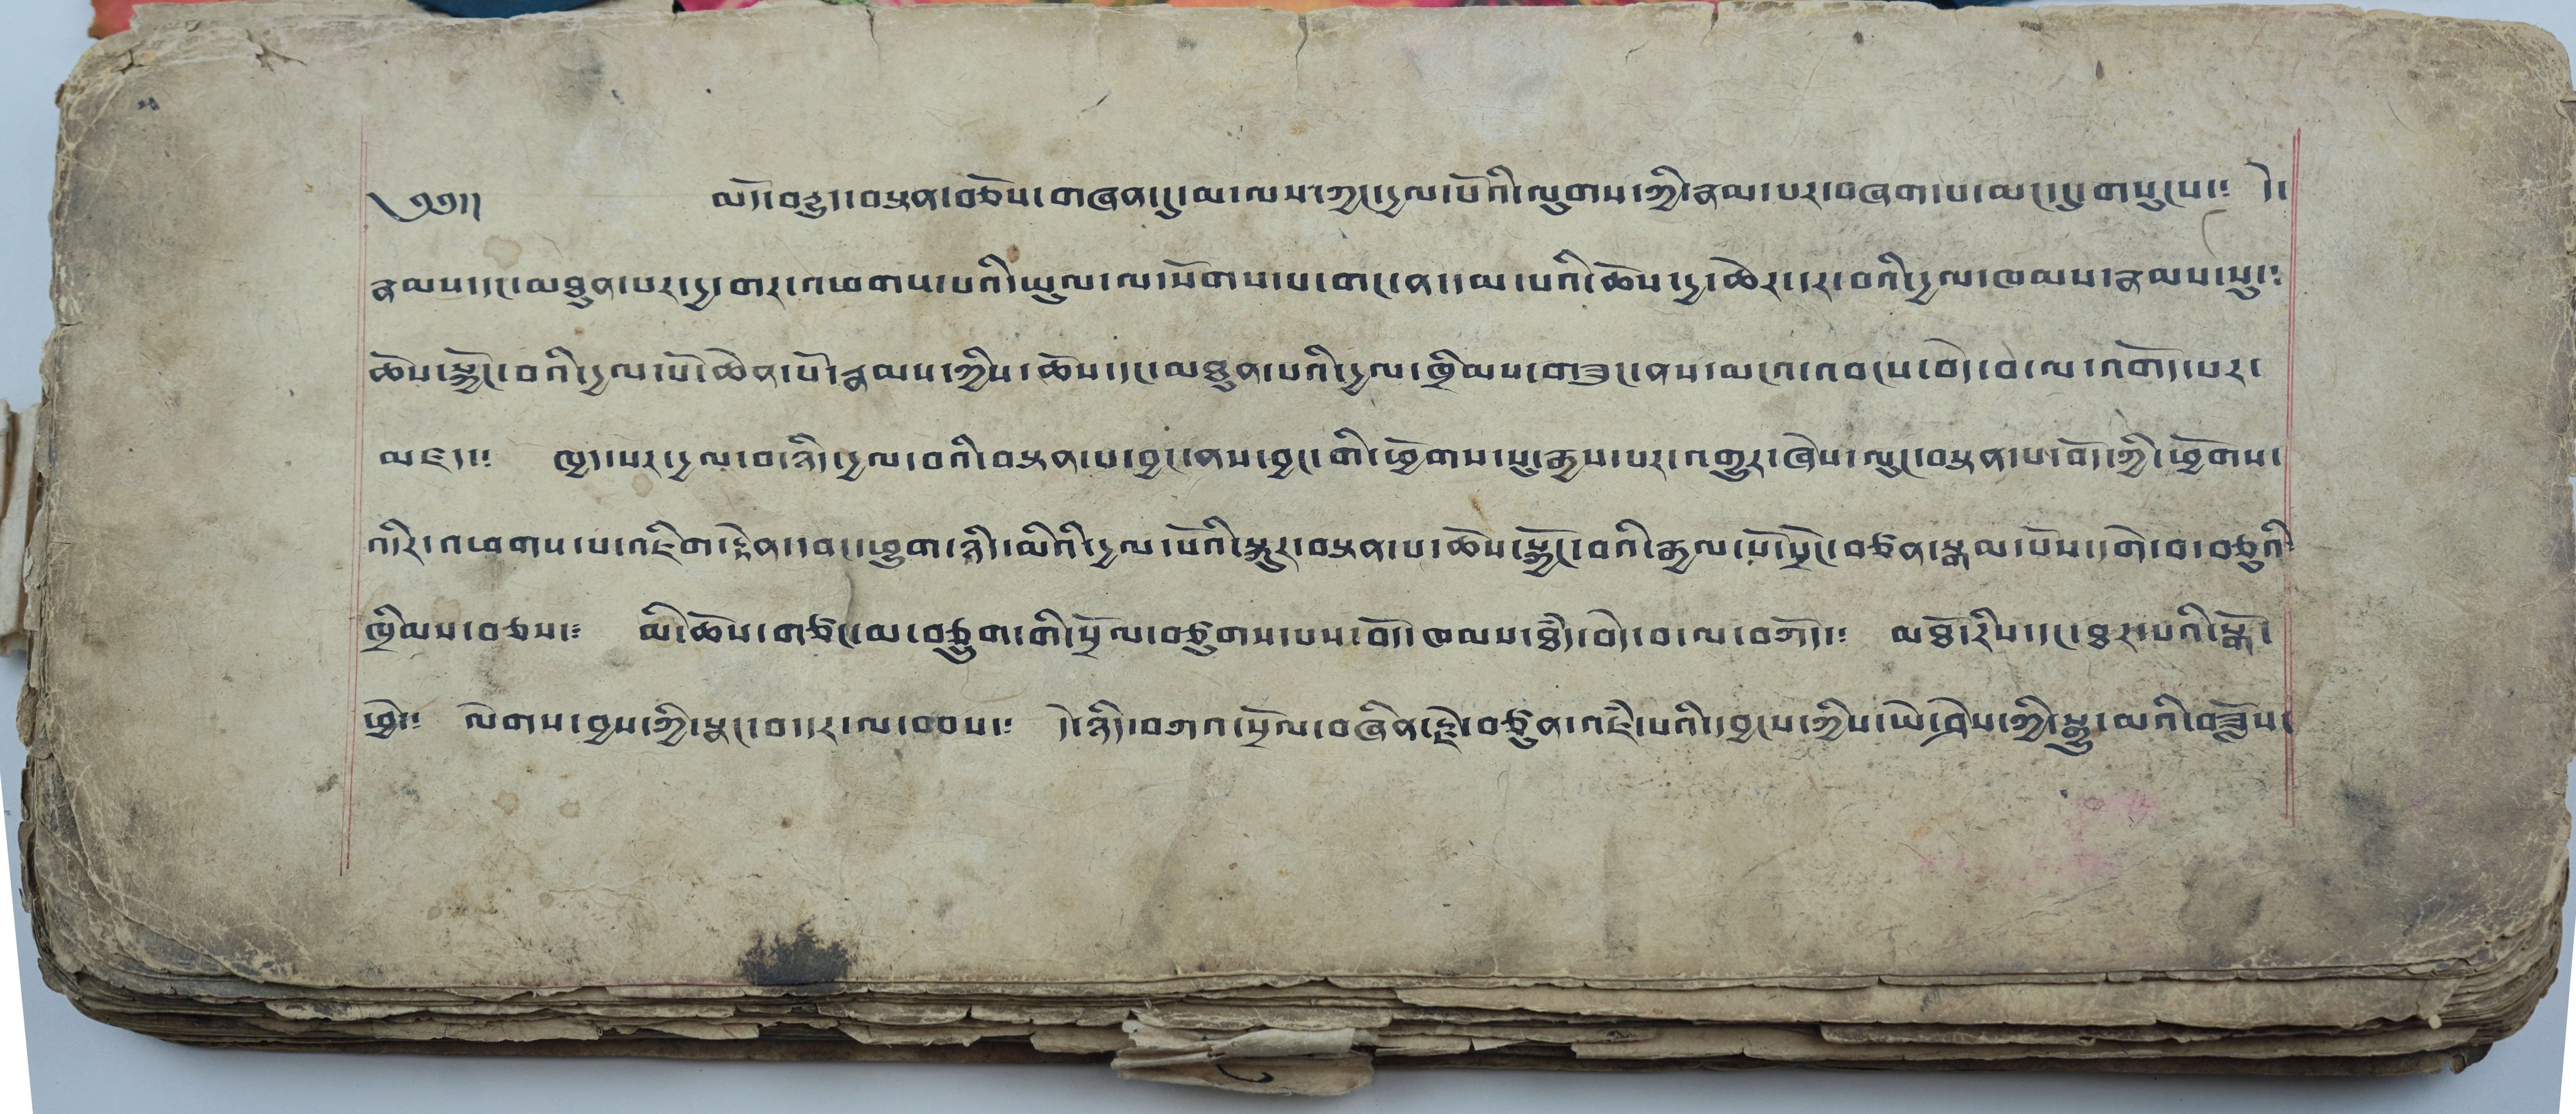༥
༄༅།། མདོ་བརྒྱུད་བསྟན་བཅོས་གཞན་དུ་མ་ལས་ཀྱང་དྱལ་པོའི་ལུགས་ཀྱི་རྣམ་པར་བཞག་པ་མང་དུ་གསུངས་༴ དེ་
རྣམས་དང་མཐུན་པར་དྱ་གར་འཕགས་པའི་ཡུལ་ལ་སོགས་པ་གང་ན་དམ་པའི་ཆོས་དྱ་ཆེར་དར་བའི་དྱལ་ཁམས་རྣམས་སུ་༴
ཆོས་སྐྱོང་བའི་དྱལ་པོ་ཆེན་པོ་རྣམས་ཀྱིས་ཆོས་དང་མཐུན་པའི་དྱལ་ཁྲིམས་གཟུང་ནས་མངའ་འབངས་བདེ་བ་ལ་འགོད་པར་
མཛད་༴ ཁྱད་པར་དྱལ་བ་ཉིད་དྱལ་བའི་བསྟན་པ་བྱང་ནས་བྱང་གི་ཕྱོགས་སུ་རྒྱས་པར་འགྱུར་ཞེས་ལུང་བསྟན་པ་བོད་ཀྱི་ཕྱོགས་
འདིར་འཕགས་པ་འཇིག་རྟེན་དབང་ཕྱུག་ཉིད་མིའི་དྱལ་པོའི་སྐུར་བསྟན་པ་ཆོས་སྐྱོང་བའི་རྒྱལ་པོ་སྲོང་བཙན་སྒམ་པོས་དགེ་བ་བཅུའི་
ཁྲིམས་བཅས་༴ མི་ཆོས་གཙང་མ་བཅུ་དྲུག་གི་སྲོལ་བཙུགས་པས་བོད་ཁམས་ཐཾད་བདེ་བ་ལ་བཀོད་༴ མཐོ་རིས་དང་ཐར་པའི་སྒོ་
ཕྱེ་༴ ལེགས་བྱས་ཀྱི་སྣང་བ་དར་ལ་བབས་༴ དེ་ཉིད་བཀའ་སྲོལ་བཞིན་རྗེ་བཙུན་འཇམ་པའི་དབྱངས་ཀྱིས་ཡེ་ཤེས་ཀྱི་སྒྱུ་མའི་བཟློས་
